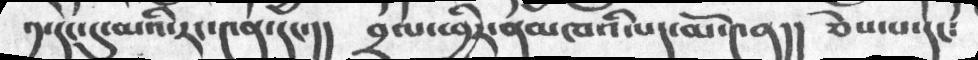༡་དང་དུ་མའི་རང་༤ན་དང་།།  བྲལ་ཕྱིར་ནམཁའི་པད་མོ་༤ན།།  ཅེས་པ་དང༴
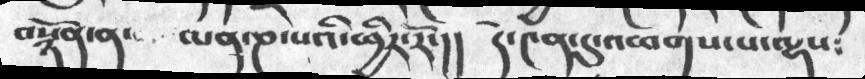བསྙོན་ན་  ལན་ཎ་པའི་ཕྱིར་རོ་།།  དེ་༤ན་དུ་འཕགས་པ་ལྷས༴
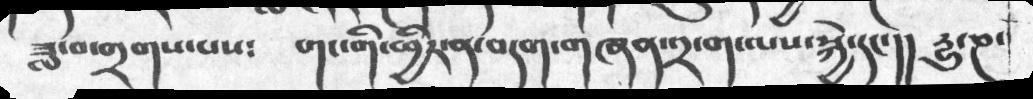ཟླ་བ་གྲགས་པས༴   གང་གི་ཕྱིར་ན་བདག་གཞན་༢་ག་ལས་སྐྱེ་དང་།།   དྱུ་ཎ་
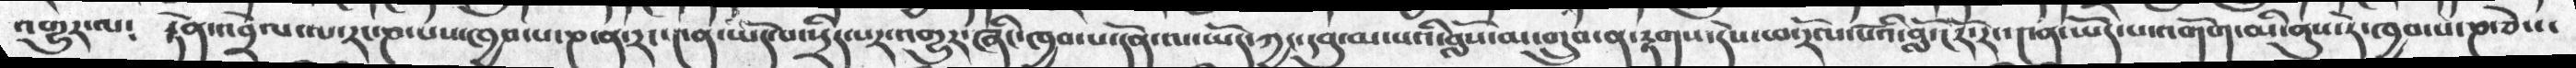འགྱུར་ལ༴ རྟེན་འབྲེལ་ལ་རང་ཎ་པས་ཁྱབ་པ་ཎ་ན་རང་༤ན་ཡོད་པ་སྲིད་པར་འགྱུར་ཞིང་ཁྱབ་པ་དོན་ལ་ཡོད་ཀྱང་དབུ་མ་པའི་བློས་མ་གྲུབ་ན་རྟགས་དེས་ཕ་རོལ་པོའི་བློ་ངོར་རང་༤ན་ཡོད་པ་འགོག་མི་ནུས་ཏེ་ཁྱབ་པ་ཎ་ཅེས་
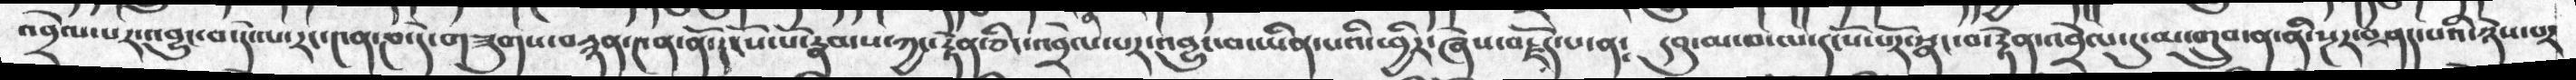འབྲེལ་པར་འབྱུང་བ་དེ་ལ་རང་༤ན་ཎ་དེ་གཟུགས་བརྙན་༤ན་ནོ་དངོས་པོ་རྣམས་ཀྱང་རྟེན་ཅིང་འབྲེལ་པར་འབྱུང་བ་ཡིན་པའི་ཕྱིར་ཞེས་བརྗོད་པ་ན༴  དབུ་མ་བ་ལ་དངོས་པར་སྣང་བ་རྟེན་འབྲེལ་དུ་མ་གྲུབ་ན་ནི་སྔར་བཤད་པའི་ཉེས་པར
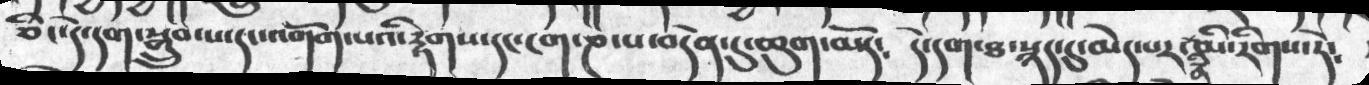ཅིང་དེ་དག་སྒྲུབ་པ་དང་འགོག་པའི་རྟགས་དང་ངག་ཎ་པ་བདེན་དུ་ཆུག་མོད༴  དེ་དག་ཐ་སྙད་དུ་མེད་པར་ནི་མི་རིགས་ཏེ༴
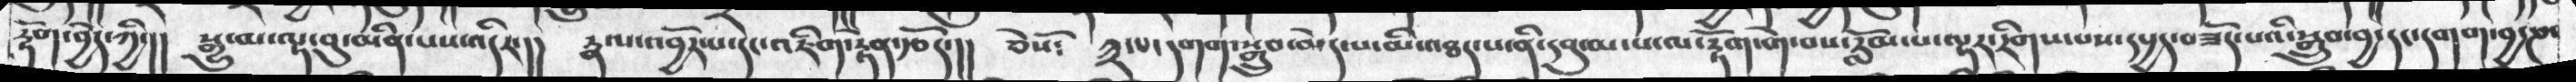རྟོག་བྱེད་ཀྱི་།།  སྒྱུ་མ་ལྟ་བུ་མིན་པས་འདིར་།།  རྣལ་འབྱོར་པ་དང་འཇིག་རྟེན་རྩོད་།།  ཅེསོ༴  ༣་པ་དགག་སྒྲུབ་མེད་པ་མི་འཐད་པ་ནི་དབུ་མ་པ་ལ་རྟོག་གེ་བས་རློམ་པ་ལྟར་རིགས་པས་དཔྱད་བཟོད་པའི་སྒྲུབ་བྱ་དང་དགག་བྱ་ཎ་
